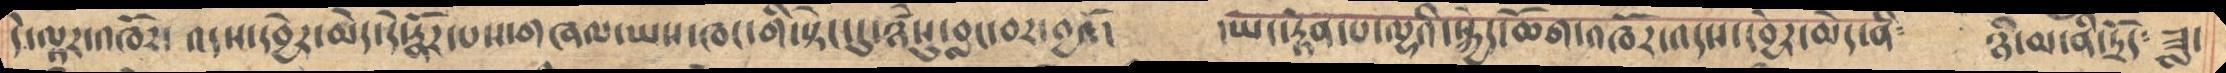དེ་ལྟར་འཁོར་འདས་དབྱེར་མེད་དེ་རྣོར་པས་གཞལ་ཡས་ཁང་གི་སྡེང་དུ་ཉཾསུ་བླང་བར་བྱའོ།    །ཡང་རྟེན་པ་ལྷའི་སྐྱེད་ཆོག་འཁོར་འདས་དབྱེར་མེད་ནི༴    ཉི་མ་ནི་དྲོད༴  ཟླ་
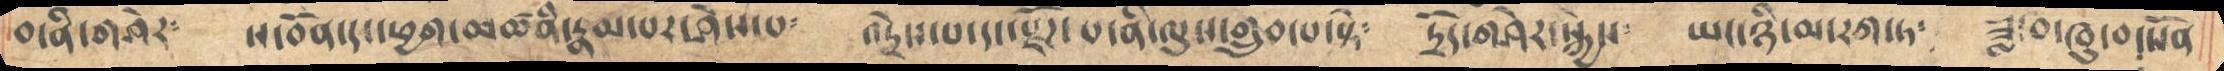བ་ནི་གཤེར༴    ས་བོན་དང་ཕྱག་མཚནི་རྣམཔར་ཤེས་པ༴     འདྲེས་པ་དང་རྫོཌ་པ་ནི་ལུས་གྲུབ་པ་སྟེ༴    དྲོད་གཤེར་སྐྱེས༴    ཡང་ཉི་མ་རཀ་ཏ༴    ཟླ་བ་ཁུ་བ་སོན
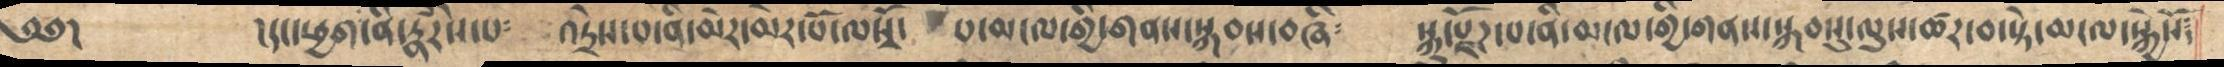༄༅།         །དང་ཕྱག་ནི་རྣོརས་པ༴   འདྲེས་པ་ནི་མེར་མེར་པོ་ལསྭོ་  པ་མངལ་གྱི་གནས་སྐབས་བཞི༴    སྐུ་རྫོཌ་པ་ནི་མངལ་གྱི་གནས་སྐབསུ་ལུས་ཚར་བ་སྟེ་མངལ་སྐྱེསོ༴
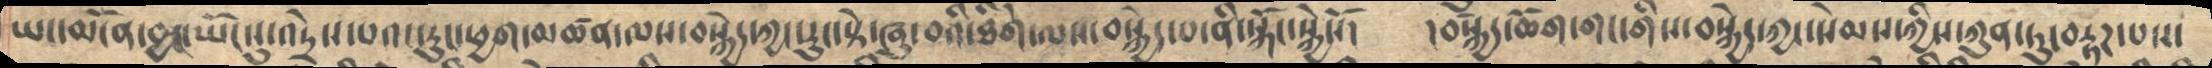ཡང་མངོན་བྱང་ཡོངསུ་འདྲེས་པའང་རུང་ཕྱག་མཚན་ལས་བསྐྱེད་ཀྱང་རུང་སྟེ་ཞུ་བའི་ཐིགི་ལས་བསྐྱེད་པ་ནི་སྒོང་སྐྱེསོ།    །བསྐྱེད་ཆོག་གང་གིས་བསྐྱེད་ཀྱང་སེམས་ཀྱིས་ཀུན་ཏུ་བརྟཌ་པས་
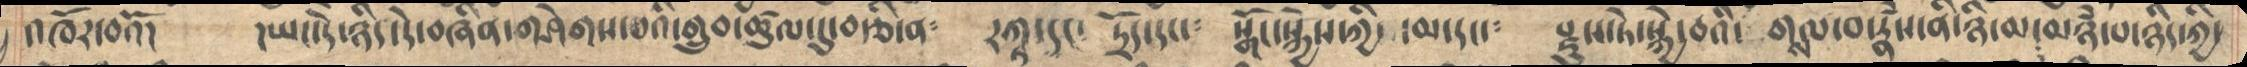འཁོར་བའོ།  །ཡང་དེ་ཉིད་དེ་བཞིན་གཤེགས་པའི་གྲུབ་ཚུལ་དུ་བརྩི་ན༴  རཀྟ་དང༴ དྲོད་དང༴ སྒོང་སྐྱེས་ཀྱི༴ དམ་དང༴  སྫུས་ཏེ་སྐྱེ་བའི་ གསལ་བ་རྣཾས་ནི་ཉི་མ་མཉཾ་པ་ཉིད་ཀྱི་
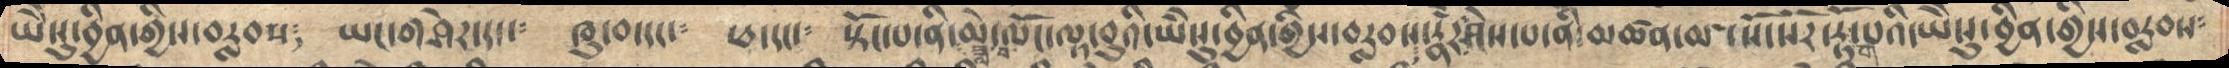ཡཻསུ་བྱིན་གྱིས་བརླབས༴   ཡང་གཤེར་དང་༴  ཁུ་བ་དང་༴  ཕ་དང་༴  སྟོང་པ་ནི་ཟླ་བ་མེ་ལོང་ལྟ་བུའི་ཡཻསུ་བྱིན་གྱིས་བརླབས་ལ་རྣཾར་ཤེས་པ་ནི་མཚན་མ་སོ་སོར་རྟོག་པའི་ཡཻསུ་བྱིན་གྱིས་བརླབས༴
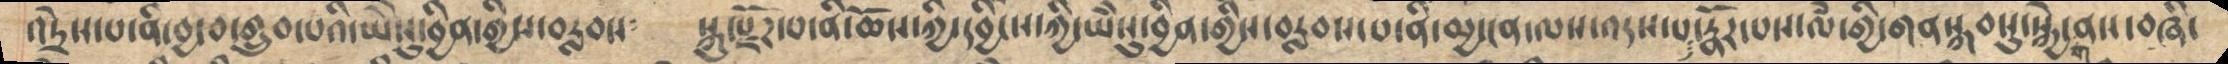འདྲེས་པ་ནི་བྱ་བ་གྲུབ་པའི་ཡཻསུ་བྱིན་གྱིས་བརླབས༴  སྐུ་སྫོཌ་པ་ནི་ཆོས་ཀྱི་དབྱིངས་ཀྱི་ཡཻསུ་བྱིན་གྱིས་བརླབས་པ་ནི་མྱ་ངན་ལས་འདས་པ་རྣོར་པས་ལཾ་གྱི་གནསསྐབསུ་སྐྱེ་གནས་བཞི་
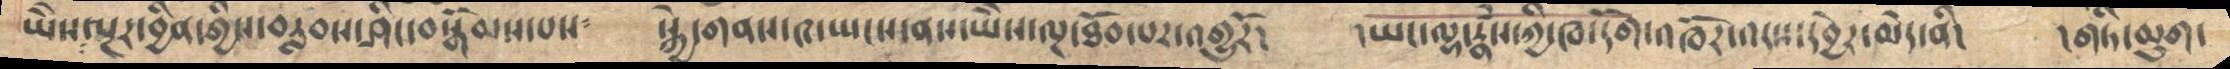ཡཻས་ལྔར་བྱིན་གྱིས་བརླབས་ཤིང་བསྒོམས་པས༴    སྐྱེ་གནས་༤་སྤངས་ནས་ཡཻས་ལྔ་ཐོབ་པར་འགྱུརོ།     །ཡང་ལྷ་རྣཾས་ཀྱི་ཁ་དོག་འཁོར་འདས་དབྱེར་མེད་ནི།     །གཏི་མུག་
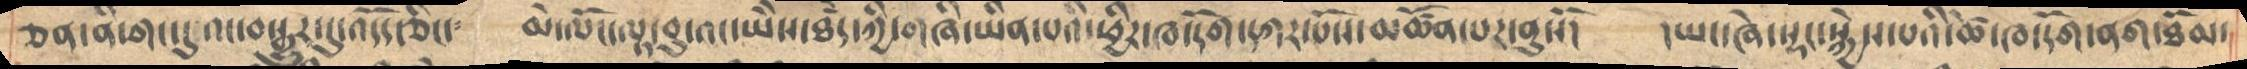ཅན་ནི་གང་དུ་འང་བསྒྱུར་དུ་འདོད་ཅིང་༴    མེ་ལོང་ལྟ་བུ་འང་ཡཻས་ཐཾད་ཀྱི་གཞི་ཡིན་པའི་ཕྱིར་ཁ་དོག་དཀར་པོས་མཚོན་པར་ནུསོ།   །ཡང་ཞེ་སྡང་སྐྱེས་པའི་ཚེ་ཁ་དོག་ནག་྇ཐོམ་
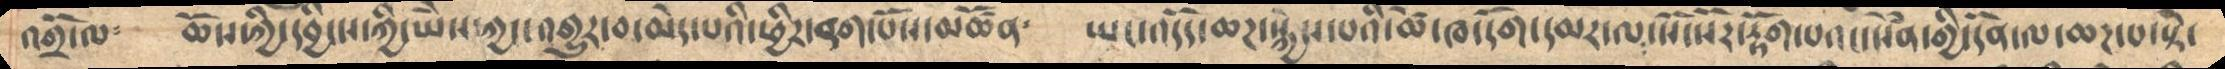འགྲོ་ལ༴    ཆོས་ཀྱི་དབྱིངས་ཀྱི་ཡཻས་ཀྱང་འགྱུར་བ་མེད་པའི་ཕྱིར་ནག་པོས་མཚོན༴     ཡང་འདོད་ཆཌ་སྐྱེས་པའི་ཚེ་ཁ་དོག་དམར་ལ་སོ་སོར་རྟོག་པའང་སེཾན་གྱི་དོན་ལ་ཆཌ་པ་སྟེ་
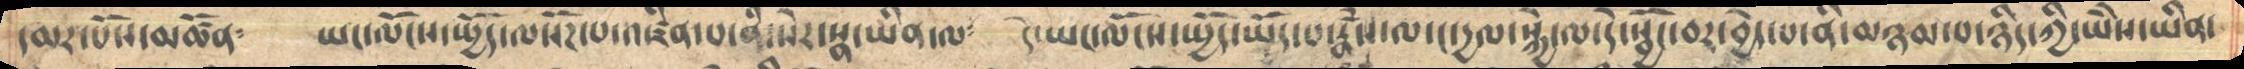དམར་པོས་མཚོན༴     ཡང་ལོངས་སྤྱོད་ལསོཌ་པ་འཛིན་པ་ནི་སེར་སྣ་ཡིན་ལ༴   དེ་ཡང་ལོངས་སྤྱོད་ཡོད་པ་རྣཾས་ལ་ང་དྱལ་སྐྱེ་ལ་དེ་སྦྱོང་བར་བྱེད་པ་ནི་མཉམ་པ་ཉིད་ཀྱི་ཡེེས་ཡིན་
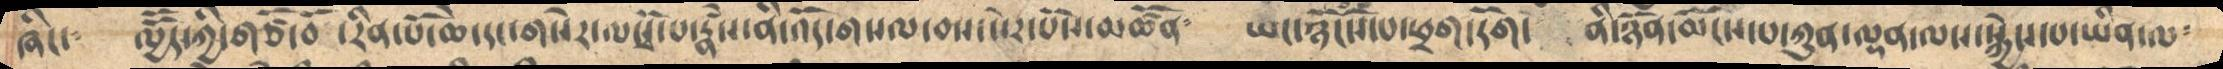ཞིང་༴    ལྱོོད་ཀྱི་གཙོ་བོ་རིན་པོ་ཆེ་དང་གསེར་ལསྭོ་པ་རྣཾས་ནི་འོད་གསལ་བས་སེར་པོས་མཚོན༴    ཡང་ཉོངོས་པ་ཕྲག་དོག་ ནི་ཉོན་མོངས་པ་ཀུན་ལྡན་ལས་སྐྱེས་པ་ཡིན་ལ༴
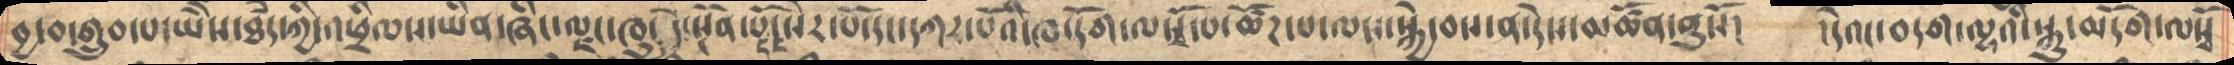བྱ་བ་གྲུབ་པ་ཡཻས་ཐཾད་ཀྱི་འཕྲིལས་ཡིན་ཞིང་ལྗང་ཁུ་དེ་སྔོན་པོ་དང་སེར་པོ་དང་དཀར་པོའི་ཁ་དོག་ལསྭོ་པ་ཚོཌ་པ་ལས་སྐྱེ་བས་ན་དེས་མཚོན་ནུསོ།   །དེའང་བདག་ལྷའི་སྐུ་མདོག་ལསྭོ
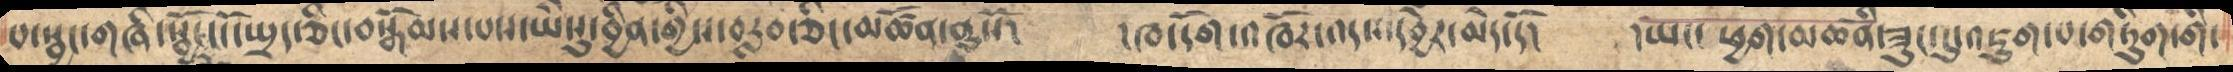པ་སྦྱང་གཞི་སྦྱོང་ངོ་སྤྲད་ཅིང་བསྒོམས་པས་ཡཻསུ་བྱིན་གྱིས་བརླབ་ཅིང་མཚོན་ནུསོ།     །ཁ་དོག་འཁོར་འདས་དབྱེར་མེད་དོ།     ཡང་ཕྱག་མཚནི་ཟུང་དུ་འཇུག་པ་གཏིུག་གི་
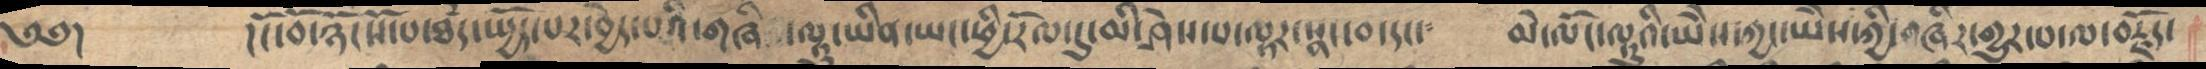༄༅།    །ངོ་བོ་ཉོངསོ་པ་ཐཾད་སྤྱོད་པར་བྱེད་པའི་གཞི་ལྟུ་ཡིན་ཡང་ཕྱི་རོལ་དུ་མི་ཤེས་པ་ལྟར་སྣང་བ་དང་༴      མེ་ལོང་ལྟུའི་ཡཻས་ཀྱང་ཡཻས་ཀྱི་གཞིར་གྱུར་པ་ལ་བརྗོད་
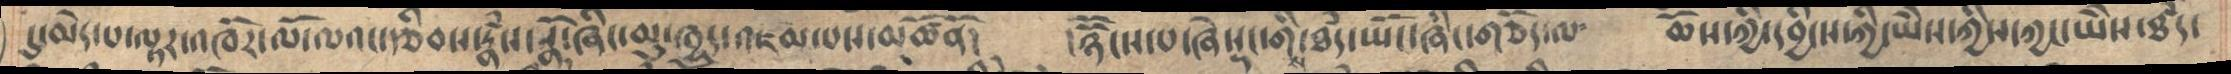དུ་མེད་པ་ལྟར་འཁོར་ལོ་ལའང་རྩིབས་རྣཾས་རྣོ་ཞིང་མུ་ཁྱུད་འཇམ་པས་མཚོནོ།    །ཉཽངས་པ་ཞེསྡང་གིས་ཐཾད་སྤོང་ཞིང་གཅོད་ལ༴   ཆོས་ཀྱི་དབྱིངས་ཀྱི་ཡཻས་ཀྱིས་ཀྱང་ཡཻས་ཐཾད་
